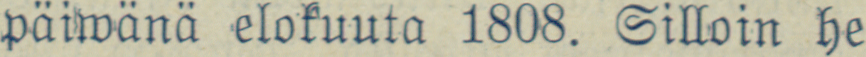päiwänä elokuuta 1808. Silloin he
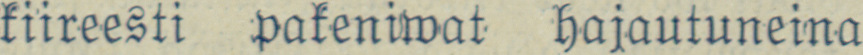kiireesti pakeniwat hajautuneina
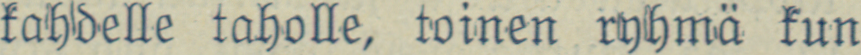kahdelle taholle, toinen ryhmä kun
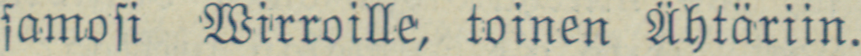samosi Wirroille, toinen Ähtäriin.
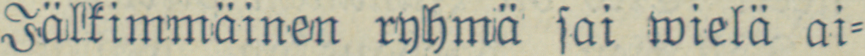Jälkimmäinen ryhmä sai wielä ai-
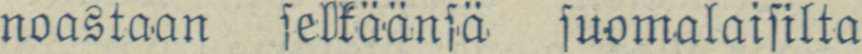noastaan selkäänsä suomalaisilta
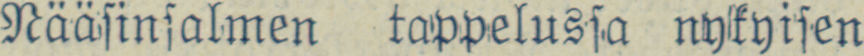Nääsinsalmen tappelussa nykyisen
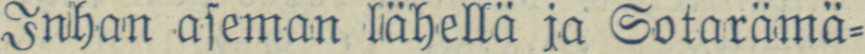Inhan aseman lähellä ja Sotarämä-
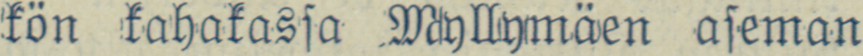kön kahakassa Myllymäen aseman
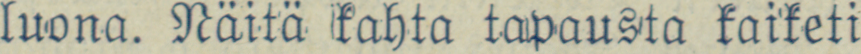luona. Näitä kahta tapausta kaiketi
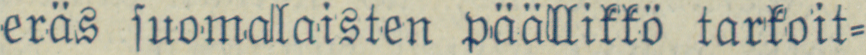eräs suomalaisten päällikkö tarkoit-
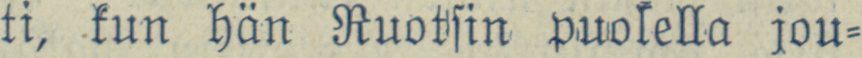ti, kun hän Ruotsin puolella jou-
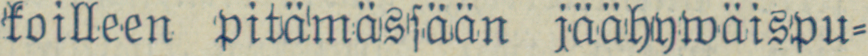koilleen pitämässään jäähywäispu-
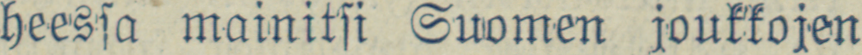heessa mainitsi Suomen joukkojen
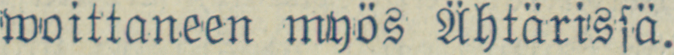woittaneen myös Ähtärissä.
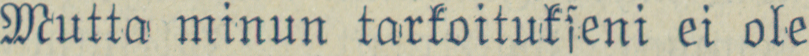Mutta minun tarkoitukseni ei ole
